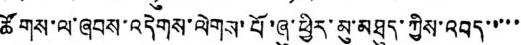ཚོགས་ལ་ཞབས་འདེགས་ལེགས་པོ་ཞུ་ཕྱིར་མུ་མཐུད་ཀྱིས་འབད་་་་་་
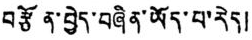བརྩོན་བྱེད་བཞིན་ཡོད་པ་རེད།
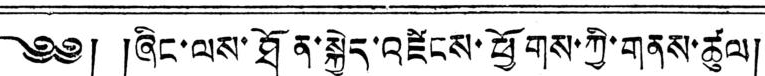༄༅། །ཞིང་ལས་ཐོན་སྐྱེད་འཛིངས་ཕྱོགས་ཀྱི་གནས་ཚུལ།
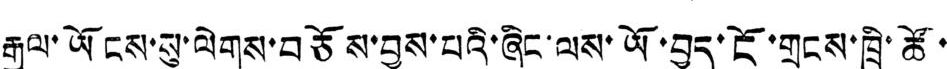རྒྱལ་ཡོངས་སུ་ལེགས་བཅོས་བྱས་པའི་ཞིང་ལས་ཡོ་བྱད་ངོ་གྲངས་ཁྲི་ཚོ་
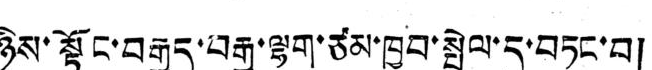ཉིས་སྟོང་བརྒྱད་བརྒྱ་ལྷག་ཙམ་ཁྱབ་སྤེལ་དུ་བཏང་བ།
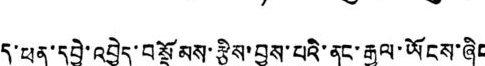ད་ཕན་དབྱེ་འབྱེད་བསྡོམས་རྩིས་བྱས་པའི་ནང་རྒྱལ་ཡོངས་ཞིང
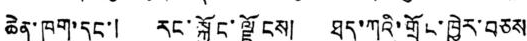ཆེན་ཁག་དང་། རང་སྐྱོང་ལྗོངས། ཐད་ཀའི་གྲོང་ཁྱེར་བཅས
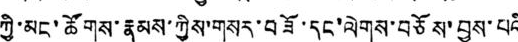ཀྱི་མང་ཚོགས་རྣམས་ཀྱིས་གསར་བཟོ་དང་ལེགས་བཅོས་བྱས་པའི
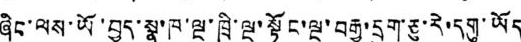ཞིང་ལས་ཡོ་བྱད་སྣ་ཁ་ལྔ་ཁྲི་ལྔ་སྟོང་ལྔ་བརྒྱ་དྲུག་ཅུ་རེ་དགུ་ཡོད
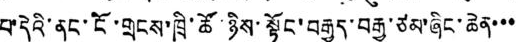པ་དེའི་ནང་ངོ་གྲངས་ཁྲི་ཚོ་ཉིས་སྟོང་བརྒྱད་བརྒྱ་ཙམ་ཞིང་ཆེན་་་
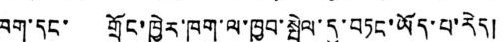ཁག་དང་ གྲོང་ཁྱེར་ཁག་ལ་ཁྱབ་སྤེལ་དུ་བཏང་ཡོད་པ་རེད།
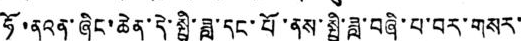ཧོ་ནའན་ཞིང་ཆེན་དེ་སྤྱི་ཟླ་དང་པོ་ནས་སྤྱི་ཟླ་བཞི་པ་བར་གསར་
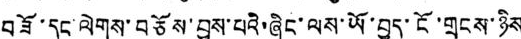བཟོ་དང་ལེགས་བཅོས་བྱས་པའི་ཞིང་ལས་ཡོ་བྱད་ངོ་གྲངས་ཉིས
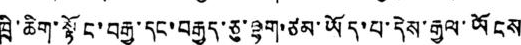ཁྲི་ཆིག་སྟོང་བརྒྱ་དང་བརྒྱད་ཅུ་ལྷག་ཙམ་ཡོད་པ་དེས་རྒྱལ་ཡོངས
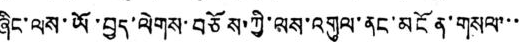ཞིང་ལས་ཡོ་བྱད་ལེགས་བཅོས་ཀྱི་ལས་འགུལ་ནང་མངོན་གསལ་་་
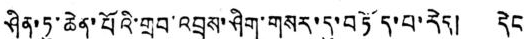ཤིན་ཏུ་ཆེན་པོའི་གྲུབ་འབྲས་ཤིག་གསར་དུ་བཏོད་པ་རེད། དེང
